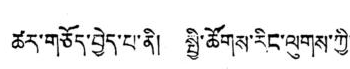ཚར་གཅོད་བྱེད་པ་ནི། སྤྱི་ཚོགས་རིང་ལུགས་ཀྱི་
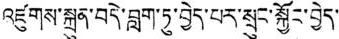འཛུགས་སྐྲུན་བདེ་བླག་ཏུ་བྱེད་པར་སྲུང་སྐྱོང་བྱེད་་
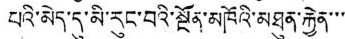པའི་མེད་དུ་མི་རུང་བའི་སྔོན་མཁོའི་མཐུན་སྐྱེན་་་་
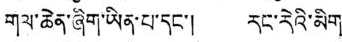གལ་ཆེན་ཞིག་ཡིན་པ་དང་། རང་རེའི་མིག་
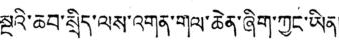སྔའི་ཆབ་སྲིད་ལས་འགན་གལ་ཆེན་ཞིག་ཀྱང་ཡིན།
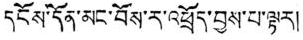དངོས་དོན་མང་བོས་ར་འཕྲོད་བྱས་པ་ལྟར།
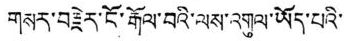གསར་བརྗེར་ངོ་རྒོལ་བའི་ལས་འགུལ་ཡོད་པའི་་
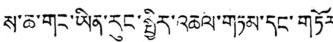ས་ཆ་གང་ཡིན་རུང་སྤྱིར་འཆལ་གཏམ་དང་གཏོར་
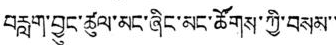བརླག་བྱུང་ཚུལ་མང་ཞིང་མང་ཚོགས་ཀྱི་བསམ་་་
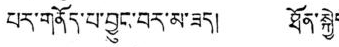པར་གནོད་པ་བྱུང་བར་མ་ཟད། ཐོན་སྐྱེད་
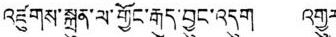འཛུགས་སྐྲུན་ལ་གྱོང་རྒུད་བྱུང་འདུག འགྱུར་
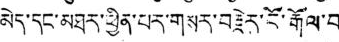མེད་དང་མཐར་ཕྱིན་པར་གསར་བརྗེར་ངོ་རྒོལ་བ་
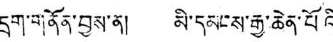དྲག་གནོན་བྱས་ན། མི་དམངས་རྒྱ་ཆེན་པོའི་
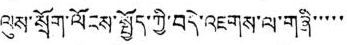ལུས་སྲོག་ལོངས་སྤྱོད་ཀྱི་བདེ་འཇགས་ལ་གཞི་་་་་
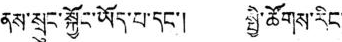ནས་སྲུང་སྐྱོང་ཡོད་པ་དང་། སྤྱི་ཚོགས་རིང་
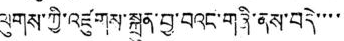ལུགས་ཀྱི་འཛུགས་སྐྲུན་བྱ་བའང་གཞི་ནས་བདེ་་་་
